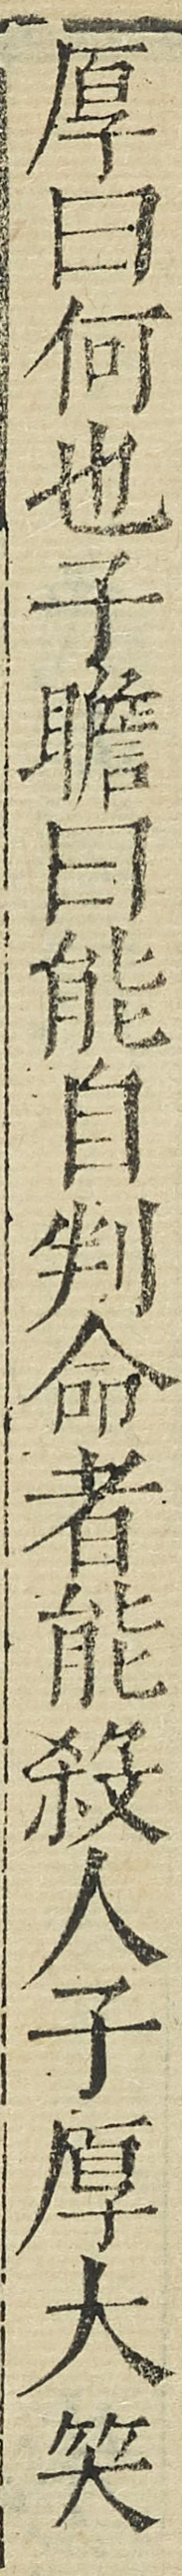厚曰何也子瞻曰能自判命者能殺人子厚大笑
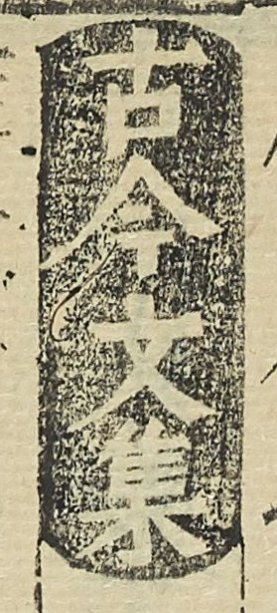古今文集
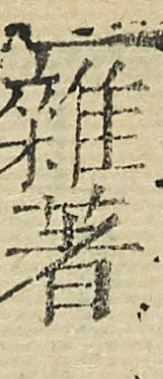雜著
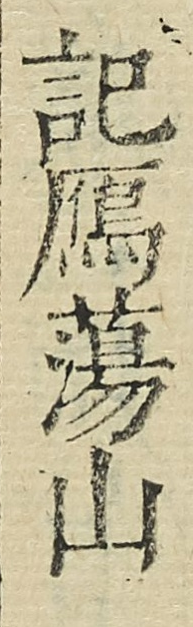記鴈蕩山
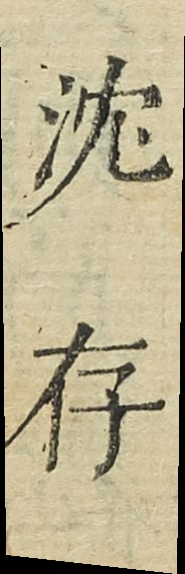沈 存
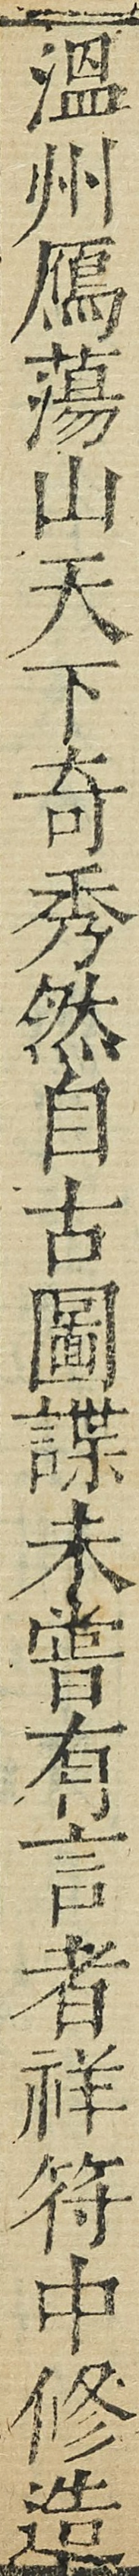溫州鴈蕩山天下竒秀然自古圖諜未嘗有言者祥符中修造
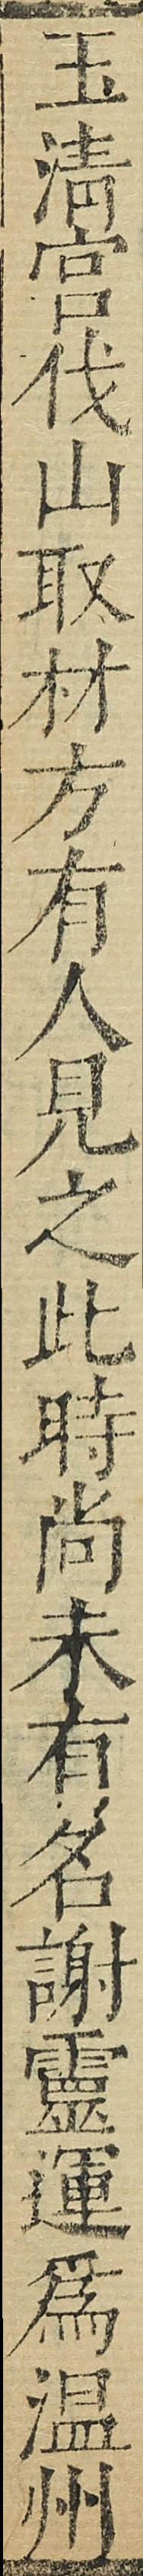玉清宫伐山取材方有人見之此時尚未有名謝靈運為温州
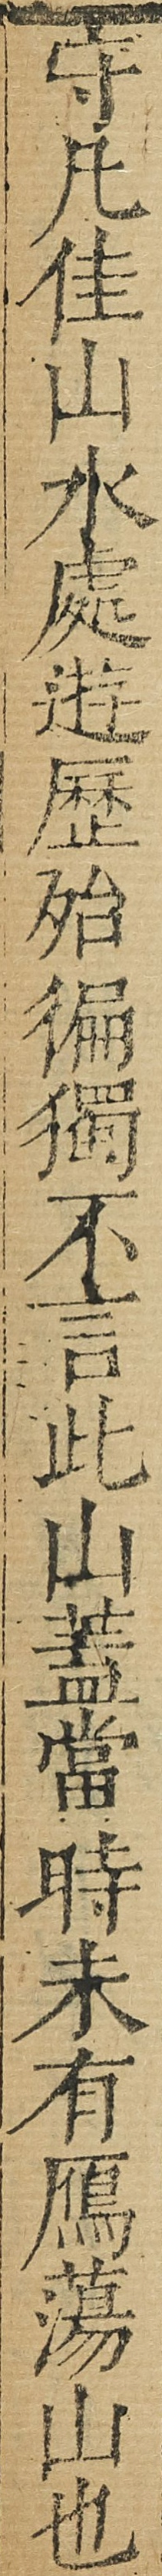守凡佳山水處逰歴殆徧獨不言此山蓋當時未有鴈蕩山也
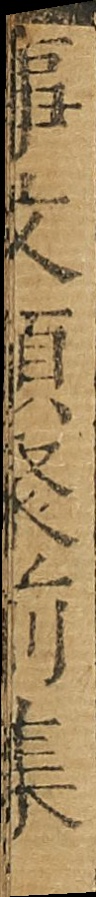事文類聚前集
